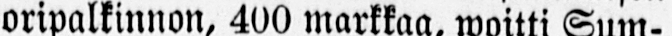man ˶ Heikki" Uudeltakirkolta, suorit-
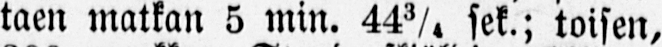taen matkan 5 min. 44 ¾ sek.; toisen,
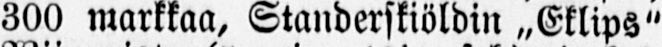300 markkaa, Standerskiöldin „Eklips"
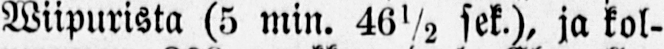Wiipurista (5 min. 46½ sek.), ja kol-
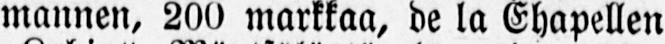mannen, 200 markkaa, de la Chapellen
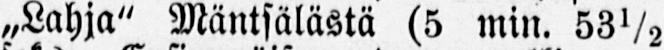„Lahja" Mäntsälästä (5 min. 53½
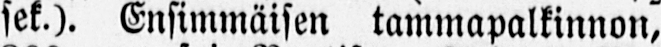sek.). Ensimmäisen tammapalkinnon,
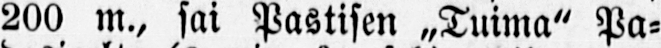200 m., sai Pastisen „Tuima" Pa-
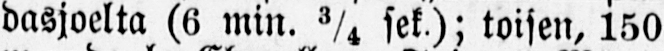dasjoelta (6 min. ¾ sek.); toisen, 150
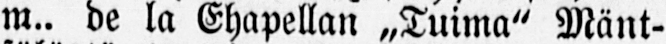m., de la Chapellan „Tuima" Mänt-
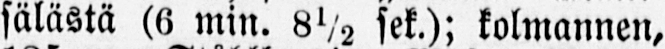sälästä (6 min.8½ sek.); kolmannen,
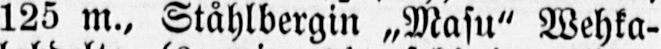125 m., Ståhlbergin „Masu" Wehka-
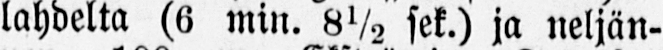lahdella (6 min. 8½ sek.) ja neljän-
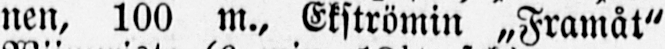nen, 100 m., Ekströmin ˶Framåt"
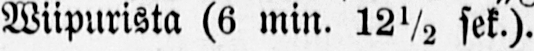Wiipurista (6 min. l2½ sek.).
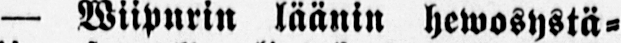— Wiipurin läänin hewosystä-
